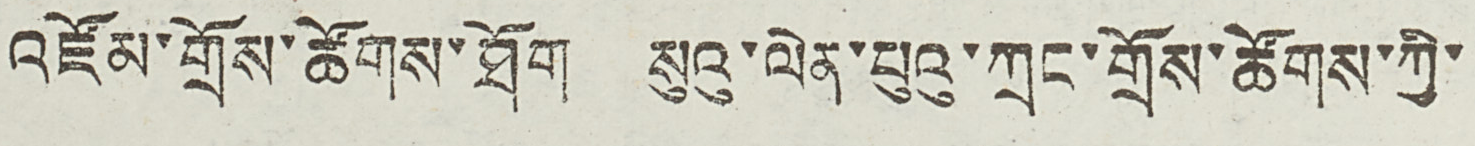འཛོམ་གྲོས་ཚོགས་ཐོག སུའུ་ལེན་པུའུ་ཀྲང་གྲོས་ཚོགས་ཀྱི་
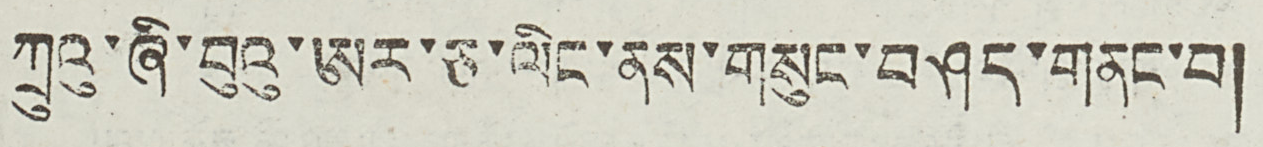ཀྲུའུ་ཞི་བུའུ་ཨར་ཅ་ལིང་ནས་གསུང་བཤད་གནང་བ།
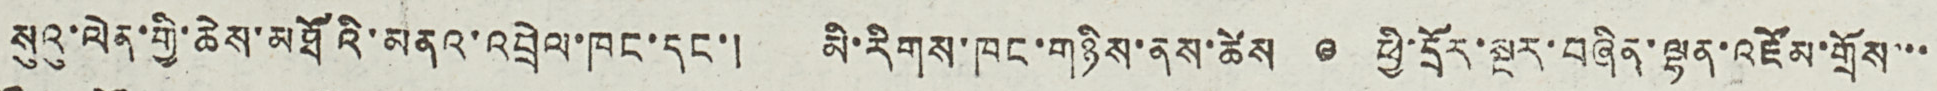སུའུ་ལེན་གྱི་ཆེས་མཐོའི་མནའ་འབྲེལ་ཁང་དང་། མི་རིགས་ཁང་གཉིས་ནས་ཚེས ༩ ཕྱི་དྲོར་སྔར་བཞིན་ལྷན་འཛོམ་གྲོས་་་
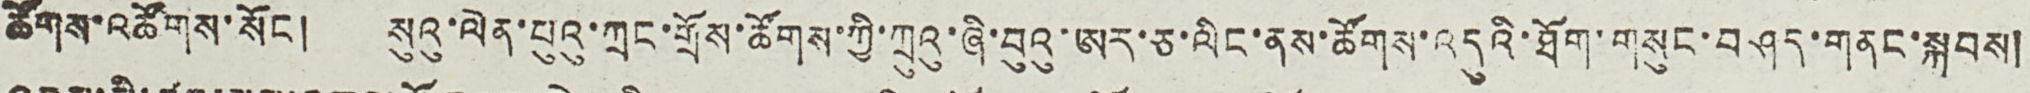ཚོགས་འཚོགས་སོང ། སུའུ་ལེན་པུའུ་ཀྲང་གྲོས་ཚོགས་ཀྱི་ཀྲུའུ་ཞི་བུའུ་ཨར་ཅ་ལིང་ནས་ཚོགས་འདུའི་ཐོག་གསུང་བཤད་གནང་སྐབས།
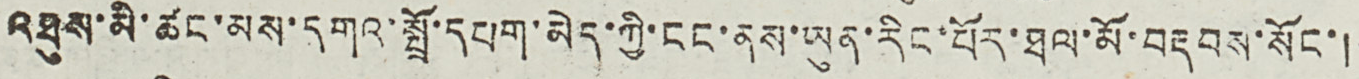འཐུས་མི་ཚང་མས་དགའ་སྤྲོ་དཔག་མེད་ཀྱི་ངང་ནས་ཡུན་རིང་པོར་ཐལ་མོ་བརྡབས་སོང་།
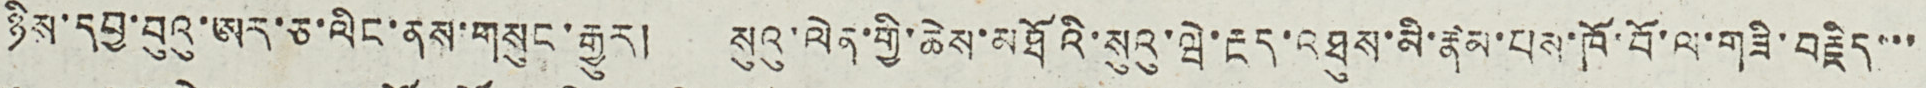ཉིས་དབྱ་བུའུ་ཨར་ཅ་ལིང་ནས་གསུང་རྒྱུར། སུའུ་ལེན་གྱི་ཆེས་མཐོའི་སུའུ་ཝེ་རྔད་འཐུས་མི་རྣམ་པས་ཁོ་བོ་ལ་གཟི་བརྗིད་་་
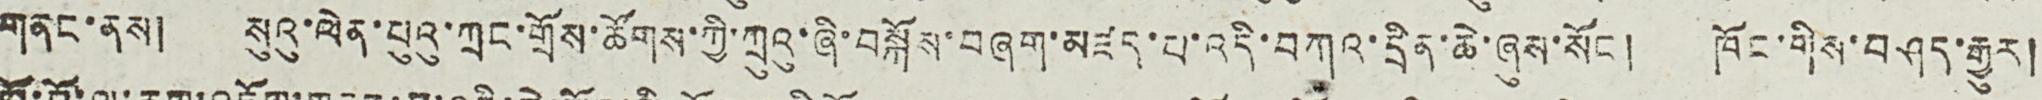གནང་ནས། སུའུ་ལེན་པུའུ་ཀྲང་གྲོས་ཚོགས་ཀྱི་ཀྲུའུ་ཞི་བསྐོས་བཞག་མཛད་པ་འདི་བཀའ་དྲིན་ཆེ་ཞུས་སོང ། ཁོང་གིས་བཤད་རྒྱུར།
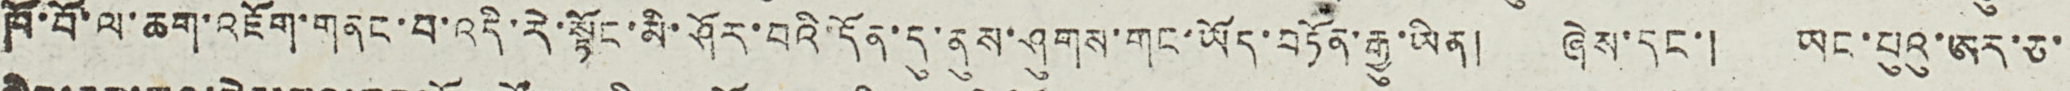ཁོ་བོ་ལ་ཆག་འཇོག་གནང་བ་འདི་རེ་སྟོང་མི་ཤོར་བའི་དོན་དུ་ནུས་ཤུགས་གང་ཡོད་བཏོན་རྒྱུ་ཡིན། ཞེས་དང་། ཡང་བུའུ་ཨར་ཅ་
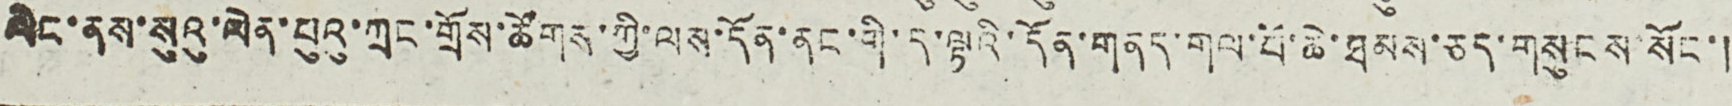ལིང་ནས་སུའུ་ལེན་པུའུ་ཀྲང་གྲོས་ཚོགས་ཀྱི་ལས་དོན་ནང་གི་ད་ལྟའི་དོན་གནད་གལ་པོ་ཆེ་ཐམས་ཅད་གསུངས་སོང་།
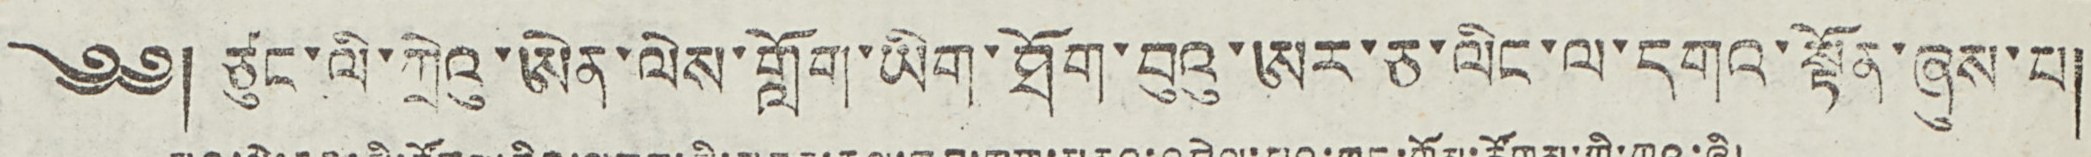༄༅། ཙུང་ལི་ཀྲེའུ་ཨེན་ལེས་གློག་ཡིག་ཐོག་བུའུ་ཨར་ཅ་ལིང་ལ་དགའ་སྟོན་ཞུས་པ།
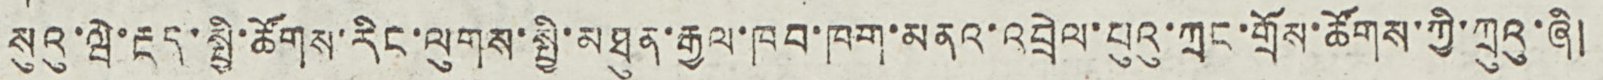སུའུ་ཝེ་རྔད་སྤྱི་ཚོགས་རིང་ལུགས་སྤྱི་མཐུན་རྒྱལ་ཁབ་ཁག་མནའ་འབྲེལ་པུའུ་ཀྲང་གྲོས་ཚོགས་ཀྱི་ཀྲུའུ་ཞི།
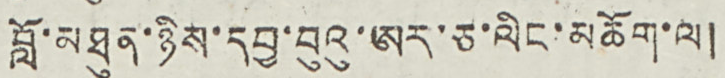བློ་མཐུན་ཉིས་དབྱ་བུའུ་ཨར་ཅ་ལིང་མཆོག་ལ།
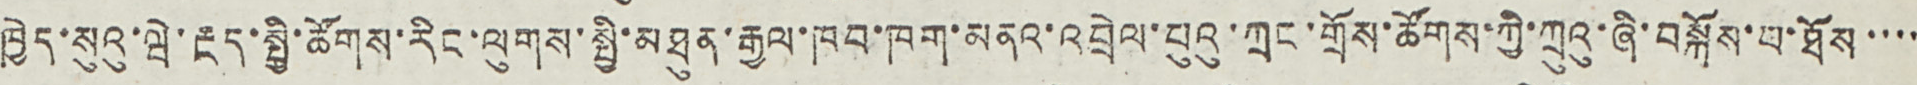ཁྱེད་སུའུ་ཝེ་རྔད་སྤྱི་ཚོགས་རིང་ལུགས་སྤྱི་མཐུན་རྒྱལ་ཁབ་ཁག་མནའ་འབྲེལ་པུའུ་ཀྲང་གྲོས་ཚོགས་ཀྱི་ཀྲུའུ་ཞི་བསྐོས་པ་ཐོས་་་་
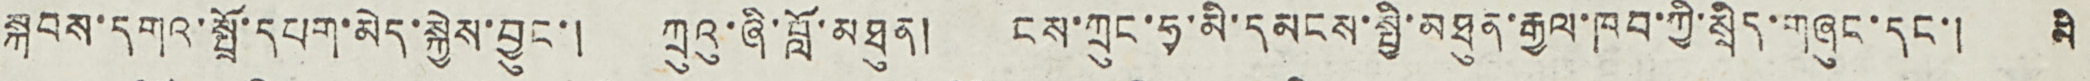སྐབས་དགའ་སྤྲོ་དཔག་མེད་སྐྱེས་བྱུང་། ཀྲུའུ་ཞི་བློ་མཐུན། ངས་ཀྲུང་ཧྭ་མི་དམངས་སྤྱི་མཐུན་རྒྱལ་ཁབ་ཀྱི་སྲིད་གཞུང་དང་། མི
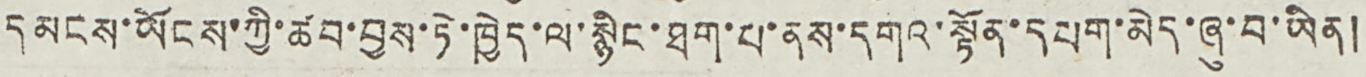དམངས་ཡོངས་ཀྱི་ཚབ་བྱས་ཏེ་ཁྱེད་ལ་སྙིང་ཐག་པ་ནས་དགའ་སྟོན་དཔག་མེད་ཞུ་བ་ཡིན།
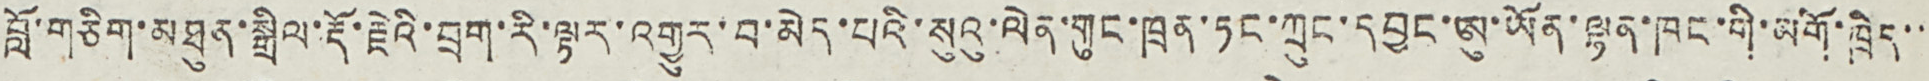བློ་གཅིག་མཐུན་སྒྲིལ་རྡོ་རྗེའི་བྲག་རི་ལྟར་འགྱུར་བ་མེད་པའི་སུའུ་ལེན་གུང་ཁྲན་ཏང་ཀྲུང་དབྱང་ཨུ་ཡོན་ལྷན་ཁང་གི་མགོ་ཁྲིད་་
